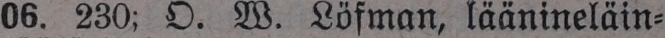06. 230; O. W. Löfman, läänineläin-
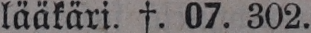lääkäri. †. 07. 302.
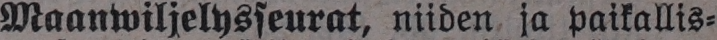Maan wiljelysseurat , niiden ja paikallis-
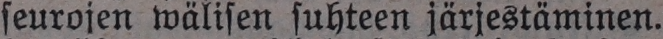seurojen wälisen suhteen järjestäminen.
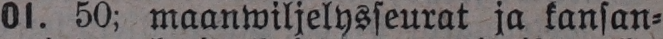01. 50; maanwiljelysseurat ja kansan-
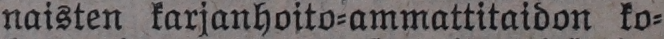naisten karjanhoito-ammattitaidon ko-
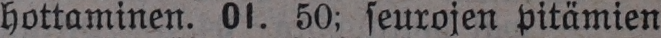hottaminen. 01. 50; seurojen pitämien
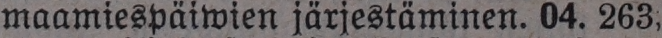maamiespäiwien järjestäminen. 04. 263,
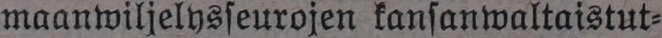maanwiljelysseurojen kansanwaltaistut-
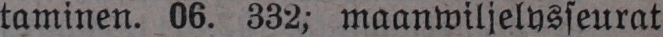taminen. 06. 332; maanwiljelysseurat
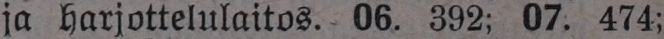ja harjottelulaitos. 06. 392; 07. 474;
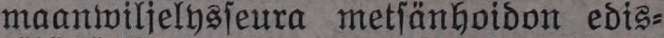maanwiljelysseura metsänhoidon edis-
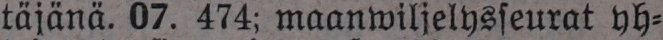täjänä. 07. 474; maanwiljelysseurat yh-
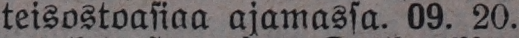teisostoasiaa ajamassa. 09. 20.
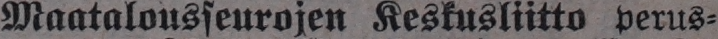Maatalousseurojen Keskusliitto perus-
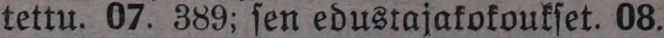tettu. 07. 389; sen edustajakokoukset. 08.
